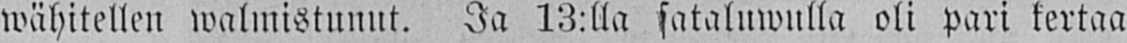wähitellen walmistunut. Ja 13:lla sataluwulla oli pari kertaa
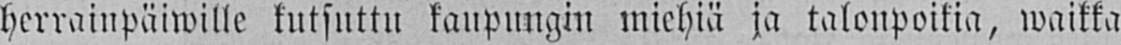herrainpäiwille kutsuttu kanpungin miehiä ja talonpoikia, waikka
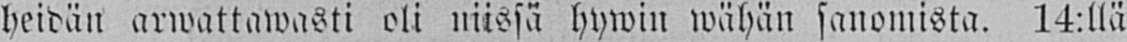heidän arwattawasti oli niissä hywin wähän sanomista. 14:llä
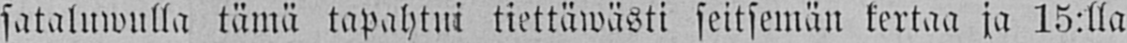sataluwulla tämä tapahtui tiettäwästi seitsemän kertaa ja 15:lla
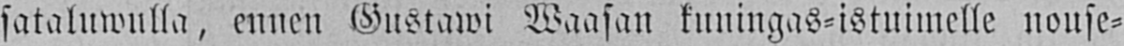sataluwulla, ennen Gustawi Waasan kuningas-istuimelle nouse-
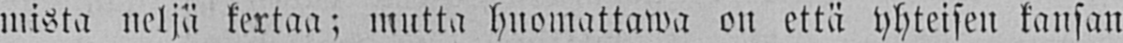mista neljä kertaa-, mutta huomattawa on että yhteisen kansan
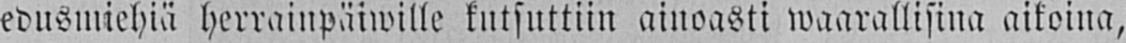edusmiehiä herrainpäiwille kutsuttiin ainoasti waarallisina aikoina,
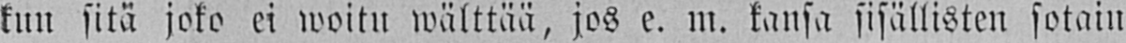kun sitä joko ei woitu wälttää, jos e. m. kansa sisällisten sotain
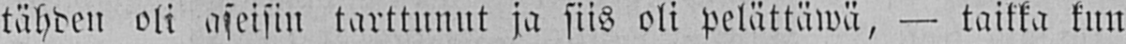tähden oli aseisin tarttunut ja siis oli pelättäwä, — taikka kun
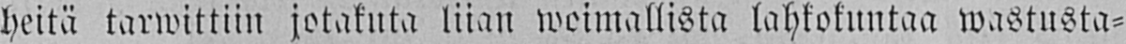heitä tarwittiin jotakuta liian woimallista lahkokuntaa wastusta-
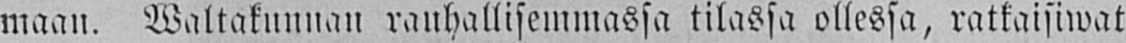maan. Waltakunnan rauhallisemmassa tilassa ollessa, ratkaisiwat
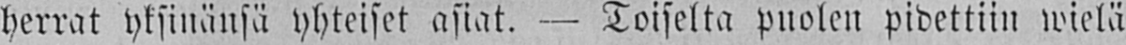herrat yksinänsä yhteiset asiat. — Toiselta puolen pidettiin wielä
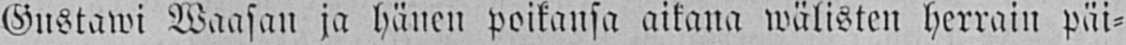Gustawi Waasan ja hänen poikansa aikana wälisten herrain päi-
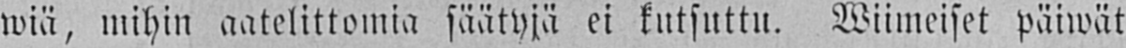wiä, mihin aatelittomia säätyjä ei kutsuttu. Wiimeiset päiwät
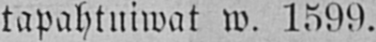tapahtuiwat w. 1599.
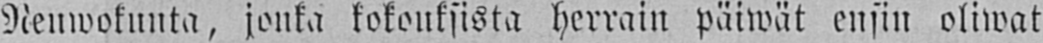Neuwokunta, jonka kokouksista herrain päiwät ensin oliwat
